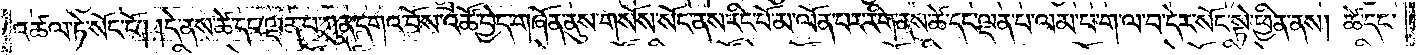འཚལ་ཏེ་སོང་ངོ༌། །དེ་ནས་ཚེ་དང་ལྡན་པ་ཀུན་དགའ་བོས་འཚོ་བྱེད་གཞོན་ནུས་གསོས་སོང་ནས་རིང་པོ་མ་ལོན་པར་རིག་ནས་ཚེ་དང་ལྡན་པ་ལམ་པ་ག་ལ་བ་དེར་སོང་སྟེ་ཕྱིན་ནས། ཚེ་དང་
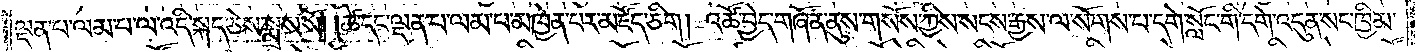ལྡན་པ་ལམ་པ་ལ་འདི་སྐད་ཅེས་སྨྲས་སོ། །ཚེ་དང་ལྡན་པ་ལམ་པ་མཁྱེན་པར་མཛོད་ཅིག །འཚོ་བྱེད་གཞོན་ནུས་གསོས་ཀྱིས་སངས་རྒྱས་ལ་སོགས་པ་དགེ་སློང་གི་དགེ་འདུན་སང་ཁྱིམ་
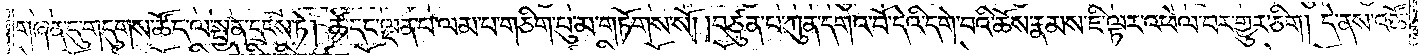གཞན་དུ་གདུགས་ཚོད་ལ་སྤྱན་དྲངས་ཏེ། ཚེ་དང་ལྡན་པ་ལམ་པ་གཅིག་པུ་མ་གཏོགས་སོ། །བཙུན་པ་ཀུན་དགའ་བོ་དེའི་དགེ་བའི་ཆོས་རྣམས་ཇི་ལྟར་འཕེལ་བར་གྱུར་ཅིག །དེ་ནས་འཚོ་
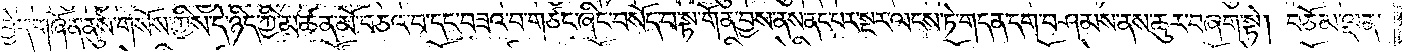བྱེད་གཞོན་ནུས་གསོས་ཀྱིས་དེ་ཉིད་ཀྱི་མཚན་མོ་བཅའ་བ་དང་བཟའ་བ་གཙང་ཞིང་བསོད་པ་སྟ་གོན་བྱས་ནས་ནང་པར་སྔར་ལངས་ཏེ་གདན་དག་བཤམས་ནས་ཆུར་བཞག་སྟེ། བཅོམ་ལྡན་
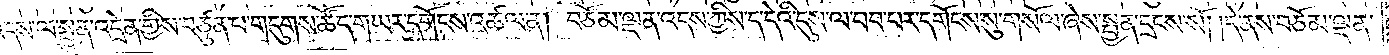འདས་ལ་སྤྱན་འདྲེན་གྱིས་བཙུན་པ་གདུགས་ཚོད་གཡར་དགོངས་འཚལ་ན། བཅོམ་ལྡན་འདས་ཀྱིས་ད་དེའི་དུས་ལ་བབ་པར་དགོངས་སུ་གསོལ་ཞེས་སྤྱན་དྲངས་སོ། །དེ་ནས་བཅོམ་ལྡན་
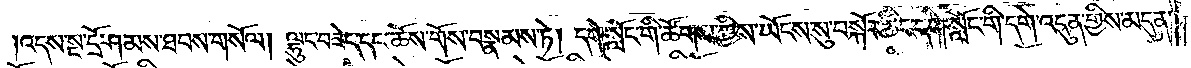འདས་སྔ་དྲོ་ཤམས་ཐབས་གསོལ། ལྷུང་བཟེད་དང་ཆོས་གོས་བསྣམས་ཏེ། དགེ་སློང་གི་ཚོགས་ཀྱིས་ཡོངས་སུ་བསྐོར་ཅིང་དགེ་སློང་གི་དགེ་འདུན་གྱིས་མདུན་
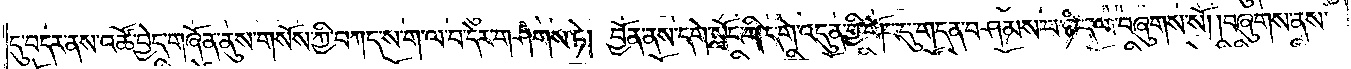དུ་བདར་ནས་འཚོ་བྱེད་གཞོན་ནུས་གསོས་ཀྱི་བཀད་ས་ག་ལ་བ་དེར་གཤེགས་ཏེ། བྱོན་ནས་དགེ་སློང་གི་དགེ་འདུན་གྱི་གོང་དུ་གདན་བཤམས་པ་ཉིད་ལ་བཞུགས་སོ། །བཞུགས་ནས་
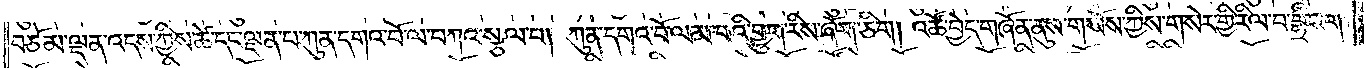བཅོམ་ལྡན་འདས་ཀྱིས་ཚེ་དང་ལྡན་པ་ཀུན་དགའ་བོ་ལ་བཀའ་སྩལ་པ། ཀུན་དགའ་བོ་ལམ་པའི་བྱུག་རིས་ཞོག་ཅིག །འཚོ་བྱེད་གཞོན་ནུས་གསོས་ཀྱིས་གསེར་གྱི་རིལ་བ་བྷྲིང་ག་
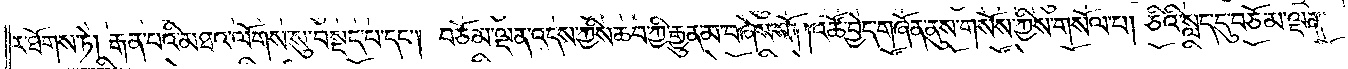ར་ཐོགས་ཏེ། རྒན་པའི་མཐའ་ལོགས་སུ་བསྡད་པ་དང༌། བཅོམ་ལྡན་འདས་ཀྱིས་ཆབ་ཀྱི་རྒྱུན་མ་བཞེས་སོ། །འཚོ་བྱེད་གཞོན་ནུས་གསོས་ཀྱིས་གསོལ་པ། ཅིའི་སླད་དུ་བཅོམ་ལྡན་
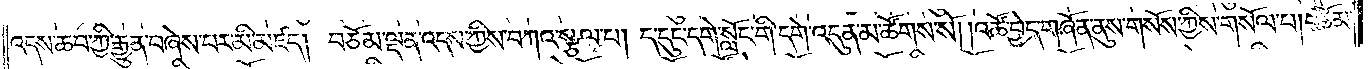འདས་ཆབ་ཀྱི་རྒྱུན་བཞེས་པར་མི་མཛད། བཅོམ་ལྡན་འདས་ཀྱིས་བཀའ་སྩལ་པ། ད་དུང་དགེ་སློང་གི་དགེ་འདུན་མ་ཚོགས་སོ། །འཚོ་བྱེད་གཞོན་ནུས་གསོས་ཀྱིས་གསོལ་པ། བཅོམ་
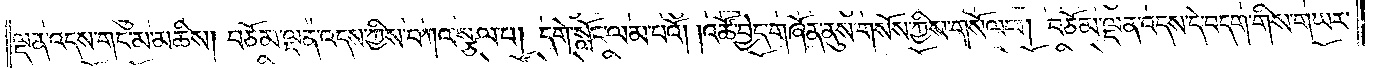ལྡན་འདས་གང་མ་མཆིས། བཅོམ་ལྡན་འདས་ཀྱིས་བཀའ་སྩལ་པ། དགེ་སློང་ལམ་པའོ། །འཚོ་བྱེད་གཞོན་ནུས་གསོས་ཀྱིས་གསོལ་པ། བཅོམ་ལྡན་འདས་དེ་བདག་གིས་གཡར་
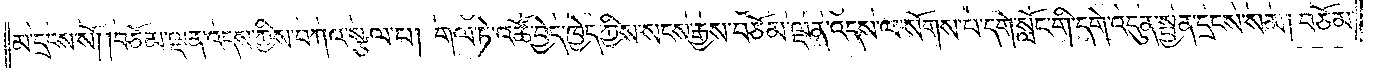མ་དྲངས་སོ། །བཅོམ་ལྡན་འདས་ཀྱིས་བཀའ་སྩལ་པ། གལ་ཏེ་འཚོ་བྱེད་ཁྱེད་ཀྱིས་སངས་རྒྱས་བཅོམ་ལྡན་འདས་ལ་སོགས་པ་དགེ་སློང་གི་དགེ་འདུན་སྤྱན་དྲངས་སམ། བཅོམ་
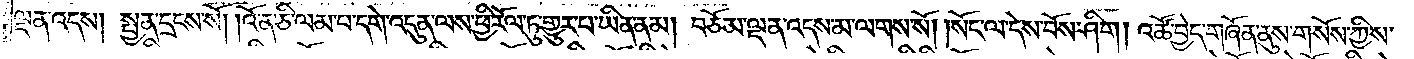ལྡན་འདས། སྤྱན་དྲངས་སོ། །འོ་ན་ཅི་ལམ་པ་དགེ་འདུན་ལས་ཕྱི་རོལ་ཏུ་གྱུར་པ་ཡིན་ནམ། བཅོམ་ལྡན་འདས་མ་ལགས་སོ། །སོང་ལ་དེས་བོས་ཤིག །འཚོ་བྱེད་གཞོན་ནུས་གསོས་ཀྱིས་
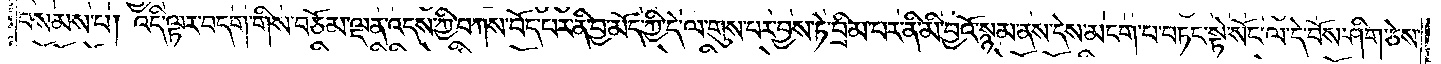བསམས་པ། འདི་ལྟར་བདག་གིས་བཅོམ་ལྡན་འདས་ཀྱི་བཀས་བོད་པར་ནི་བྱ་མོད་ཀྱི་དེ་ལ་གུས་པར་བྱས་ཏེ་བྲིམ་པར་ནི་མི་བྱའོ་སྙམ་ནས་དེས་མངག་པ་བཏང་སྟེ་སོང་ལ་དེ་བོས་ཤིག་ཅེས་
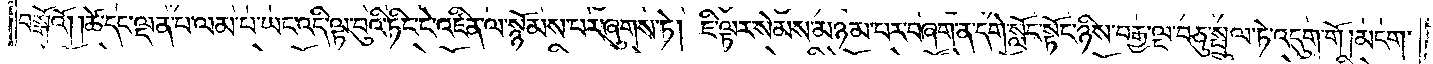བསྒོའོ། །ཚེ་དང་ལྡན་པ་ལམ་པ་ཡང་འདི་ལྟ་བུའི་ཏིང་ངེ་འཛིན་ལ་སྙོམས་པར་ཞུགས་ཏེ། ཇི་ལྟར་སེམས་མཉམ་པར་བཞག་ན་དགེ་སློང་སྟོང་ཉིས་བརྒྱ་ལྔ་བཅུ་སྤྲུལ་ཏེ་འདུག་གོ །མངག་
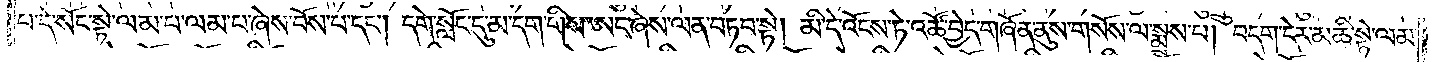པ་དེ་སོང་སྟེ་ལམ་པ་ལམ་པ་ཞེས་བོས་པ་དང༌། དགེ་སློང་དུ་མ་དག་གིས་ཨང་ཞེས་ལན་བཏབ་སྟེ། མི་དེ་འོངས་ཏེ་འཚོ་བྱེད་གཞོན་ནུས་གསོས་ལ་སྨྲས་པ། བདག་དེར་མཆི་སྟེ་ལམ་
